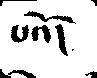པའོ།
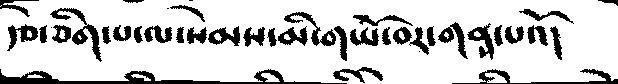རྩེ་ཅིག་པ་ལ་སེམས་མི་གཡོ་བར་གནས་པའོ།
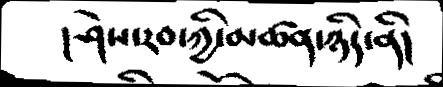།ཤེས་རབ་ཀྱི་མཚན་ཉིད་ནི།
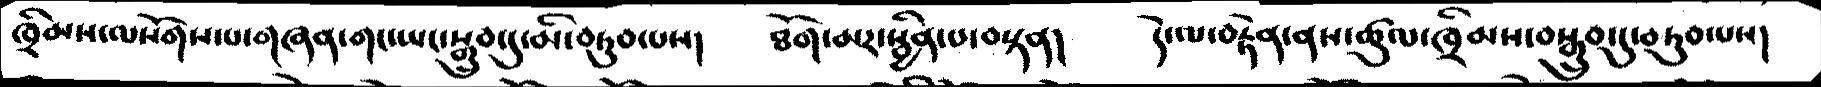ཁྲིམས་ལསོགས་པ་གཞན་གང་ཡང་སྒྲུབ་དུ་མི་བཏུབ་པས།   ཐོག་མར་སྦྱིན་པ་བསྟན།   དེ་ལ་བརྟེན་ནས་ཚུལ་ཁྲིམས་བསྒྲུབ་དུ་བཏུབ་པས།
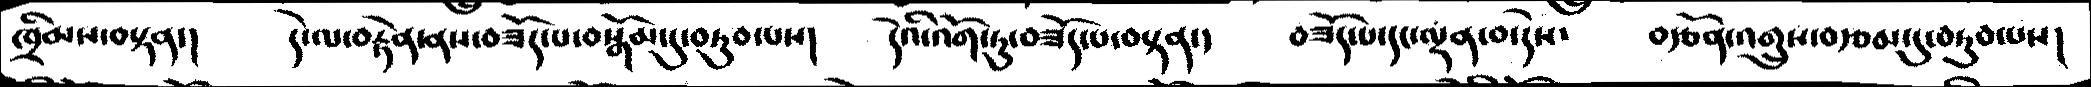ཁྲིམས་བསྟན་།   དེ་ལ་བརྟེན་ནས་བཟོད་པ་བསྒོམ་དུ་བཏུབ་པས།   དེའི་འོག་ཏུ་བཟོད་པ་བསྟན་།   བཟོད་པ་དང་ལྡན་བ་དེས་    བརྩོན་འགྲུས་བརྩམ་དུ་བཏུབ་པས།
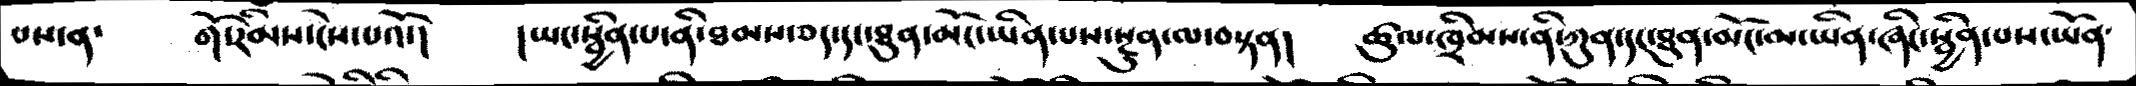བས་ན་   གོ་རིམས་ངེས་པའོ།   །ཡང་སྦྱིན་པ་ནི་ཐམས་ཅད་དང་ཐུན་མོང་ཡིན་པས་སྔུན་ལ་བསྟན།   ཚུལ་ཁྲིམས་ནི་ཀུན་དང་ཐུན་མོང་མ་ཡིན་ཞིང་སྦྱིན་པས་ཡོན་
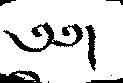༄༅།
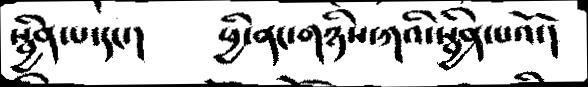སྦྱིན་པ་དང་།   ཕྱི་ནང་གཉིས་ཀའི་སྦྱིན་པའོ་།
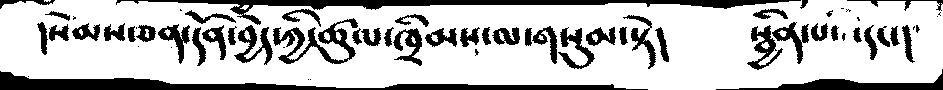སེམས་ཅན་དོན་བྱེད་ཀྱི་ཚུལ་ཁྲིམས་ལ་གསུམ་སྟེ།    སྦྱིན་པ་དང་།
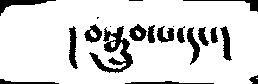།བསྒྲུབ་པ་དང་།
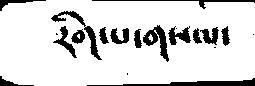རིག་པ་གསལ་
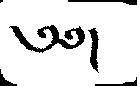༄༅།
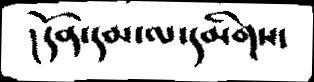།དོན་དམ་ལ་དམིགས་
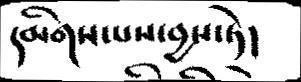དམིགས་པས་བྱས་ཏེ།
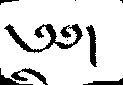༄༅།
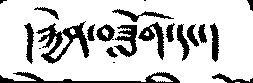།རྐྱེན་བཟློག་དང་།
